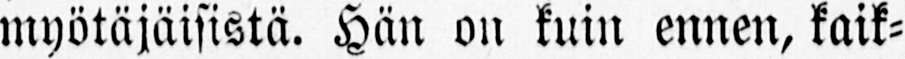myötäjäisistä. Hän on kuin ennen, kaik-
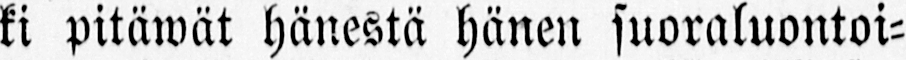ki pitäwät hänestä hänen suoraluontoi-
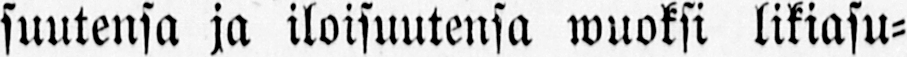suutensa ja iloisuutensa wuoksi likiasu-
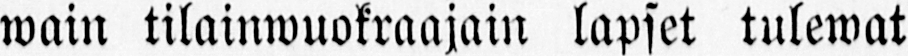wain tilainwuokraajain lapset tulewat
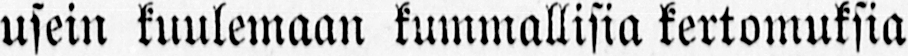usein kuulemaan kummallisia kertomuksia
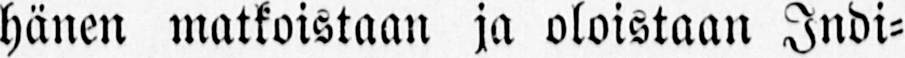hänen matkoistaan ja oloistaan Indi-
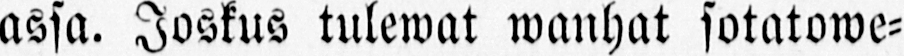assa. Joskus tulewat wanhat sotatowe-
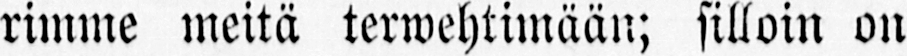rimme meitä terwehtimään; silloin on
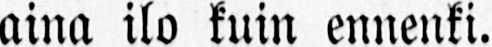aina ilo kuin ennenki.
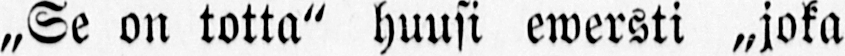„Se on totta" huusi ewersti „joka
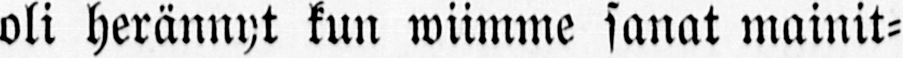oli herännyt kun wiimme sanat mainit-
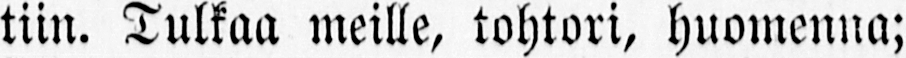tiin. Tulkaa meille, tohtori, huomenna;
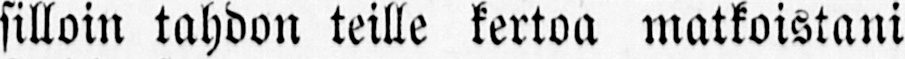silloin tahdon teille kertoa matkoistani
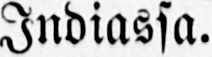Indiassa.
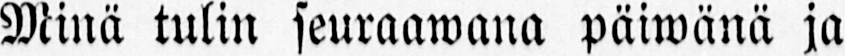Minä tulin seuraawana päiwänä ja
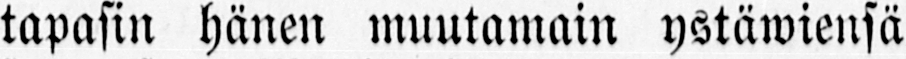tapasin hänen muutamain ystäwiensä
